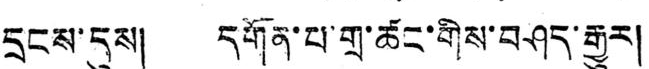དྲངས་དུས། དགོན་པ་གྲ་ཚང་གིས་བཤད་རྒྱུར།
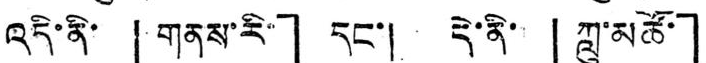འདི་ནི་ 「གནས་རི་」 དང་། དེ་ནི་ 「ཀླུ་མཚོ་」
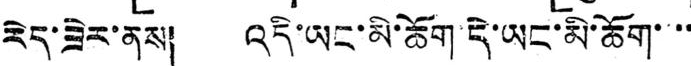རེད་ཟེར་ནས། འདི་ཡང་མི་ཆོག་དེ་ཡང་མི་ཆོག་་་་
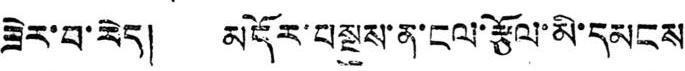ཟེར་བ་རེད། མདོར་བསྡུས་ན་ངལ་རྩོལ་མི་དམངས་
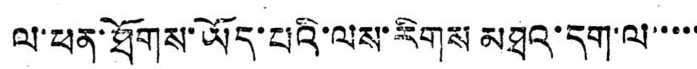ལ་ཕན་ཐོགས་ཡོད་པའི་ལས་རིགས མཐའ་དག་ལ་་་་་
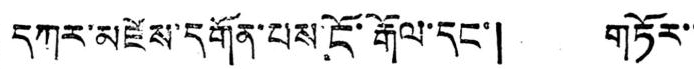དཀར་མཛེས་དགོན་པས་ངོ་རྒོལ་དང་། གཏོར་་
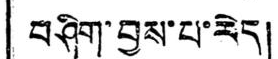བཤིག་བྱས་པ་རེད།
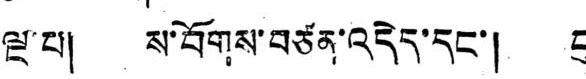ལྔ་པ། ས་བོགས་བཙན་འདེད་དང་། བུ
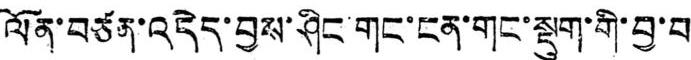ལོན་བཙན་འདེད་བྱས་ཤིང་གང་ངན་གང་སྡུག་གི་བྱ་བ
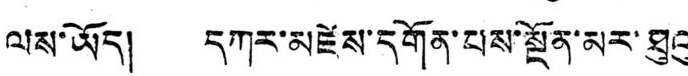ལས་ཡོད། དཀར་མཛེས་དགོན་པས་སྔོན་མར་ཐུའུ
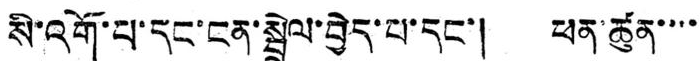སི་འགོ་པ་དང་ངན་སྦྲེལ་བྱེད་པ་དང་། ཕན་ཚུན་་་་
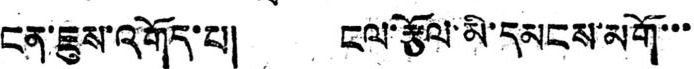ངན་ཇུས་འགོད་པ། ངལ་རྩོལ་མི་དམངས་མགོ་་་
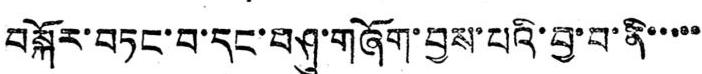བསྐོར་བཏང་བ་དང་བཤུ་གཞོག་བྱས་པའི་བྱ་བ་ནི་་་་་
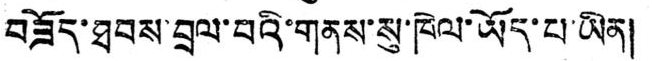བཟོད་ཐབས་བྲལ་བའི་གནས་སུ་ཁེལ་ཡོད་པ་ཡིན།
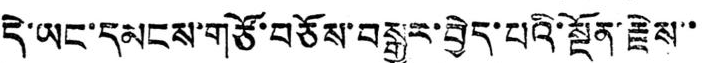དེ་ཡང་དམངས་གཙོ་བཅོས་བསྒྱུར་བྱེད་པའི་སྔོན་རྗེས་་
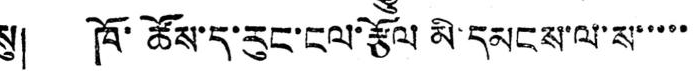སུ། ཁོ་ཚོས་ད་རུང་ངལ་རྩོལ མི་དམངས་ལ་ས་་་་་
